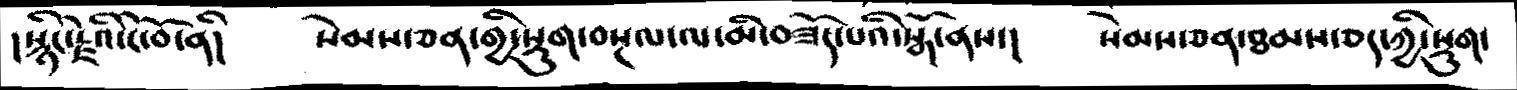།སྙིང་རྗེའི་ངོ་བོ་ནི།      སེམས་ཅན་གྱི་སྡུག་བསྔལ་ལ་མི་བཟོད་པའི་སྒོ་ནས་།      སེམས་ཅན་ཐམས་ཅད་ཀྱི་སྡུག་
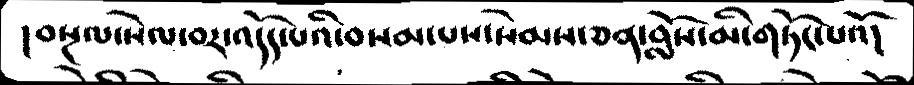།བསྔལ་སེལ་བར་འདོད་པའི་བསམ་པས་སེམས་ཅན་བློས་མི་གཏོང་པའོ།
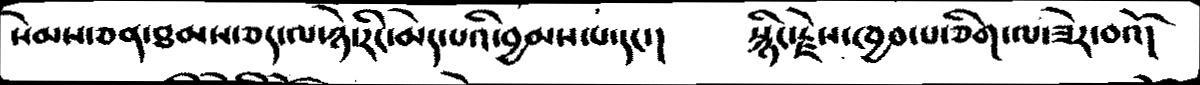སེམས་ཅན་ཐམས་ཅད་ཉེ་རིང་མེད་པའི་བྱམས་པ་དང་།      སྙིང་རྗེས་ཁྱབ་པ་ཅིག་ལ་ཟེར་བའོ།
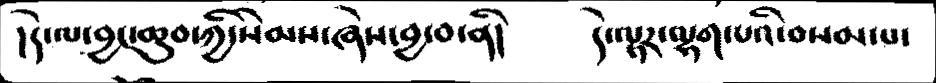།དེ་ལ་བྱང་ཆུབ་ཀྱི་སེམས་ཞེས་བྱ་བ་ནི།      དེ་ལྟར་ལྷག་པའི་བསམ་པ་
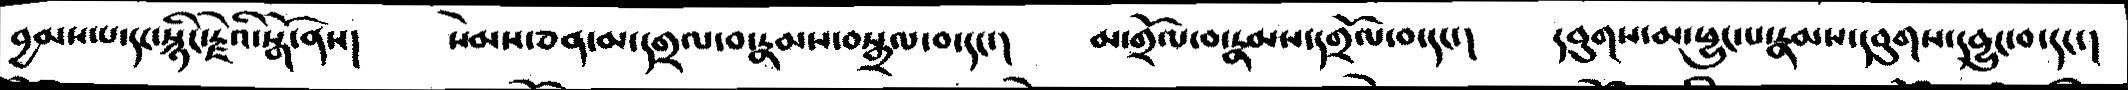བྱམས་པ་དང་སྙིང་རྗེའི་སྒོ་ནས།   སེམས་ཅན་མ་དགྲལ་བ་རྣམས་བསྒྲལ་བ་དང་།  མ་གྲོལ་བ་རྣམས་དགྲོལ་བ་དང་།  དབུགས་མ་ཕྱུང་པ་རྣམས་དབུགས་དབྱུང་བ་དང་།
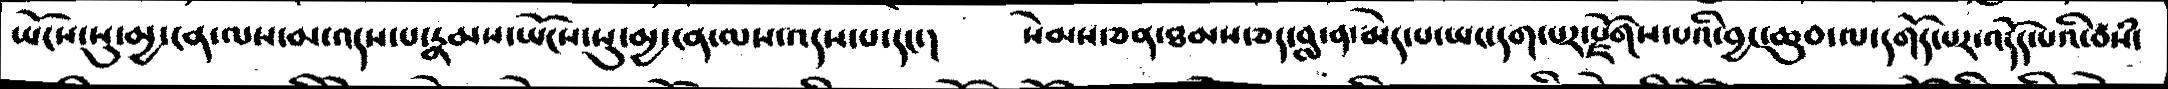ཡོངས་སུ་མྱ་ངན་ལས་མ་འདས་པ་རྣམས་ཡོངས་སུ་མྱ་ངན་ལས་འདས་པ་དང་།   སེམས་ཅན་ཐམས་ཅད་བླ་ན་མེད་པ་ཡང་དག་པར་རྫོགས་པའི་བྱང་ཆུབ་ལ་དགོད་པར་འདོད་པའི་བསཾ་
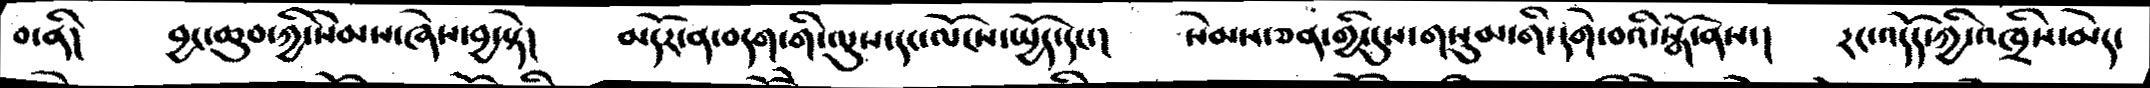བ་ནི།    བྱང་ཆུབ་ཀྱི་སེམས་ཞེས་བྱ་སྟེ།  མདོར་ན་བདག་གི་ལུས་དང་ལོངས་སྤྱོད་དང་།  སེམས་ཅན་གྱི་དུས་གསུམ་གི་དགེ་བའི་སྒོ་ནས་།  རང་འདོད་ཀྱི་འཁྲིས་མེད་
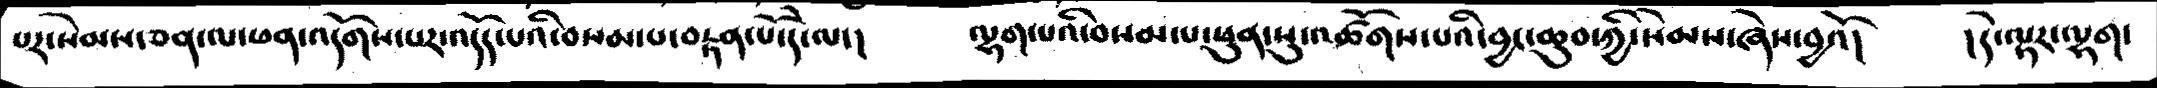པར་སེམས་ཅན་ལ་ཕན་འདོགས་པར་འདོད་པའི་བསམ་པ་བརྟན་པོ་དེ་ལ་།   ལྷག་པའི་བསམ་པ་ཕུན་སུམ་འཚོགས་པའི་བྱང་ཆུབ་ཀྱི་སེམས་ཞེས་བྱའོ།   །དེ་ལྟར་ལྷག་
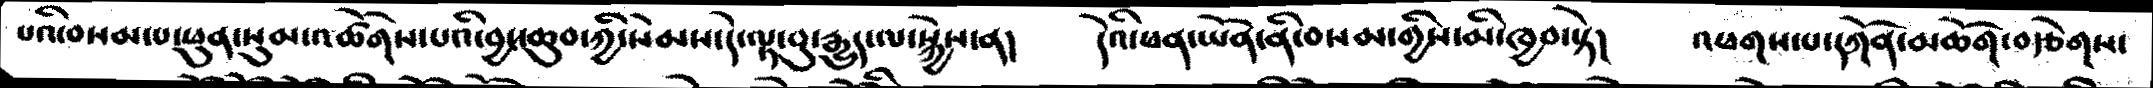པའི་བསམ་པ་ཕུན་སུམ་འཚོགས་པའི་བྱང་ཆུབ་ཀྱི་སེམས་དེ་ལྟ་བུ་རྒྱུད་ལ་སྐྱེས་ན།     དེའི་ཕན་ཡོན་ནི་བསམ་གྱིས་མི་ཁྱབ་སྟེ།   འཕགས་པ་དཀོན་མཆོག་བརྩེགས་
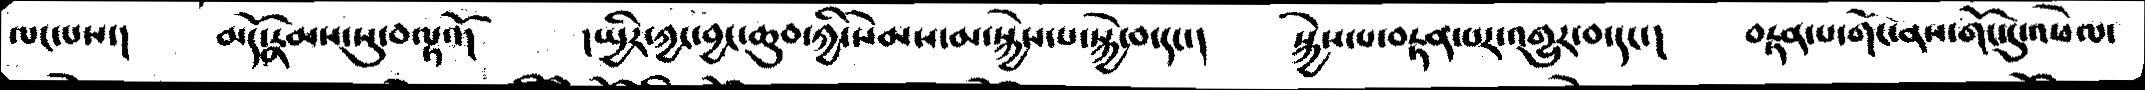ལང་པས་།   མདོ་རྣམས་སུ་བལྟའོ།   །སྤྱིར་ཀྱང་བྱང་ཆུབ་ཀྱི་སེམས་མ་སྐྱེས་པ་སྐྱེ་བ་དང་།   སྐྱེས་པ་བརྟན་པར་འགྱུར་བ་དང་།    བརྟན་པ་གོང་ནས་གོང་དུ་འཕེལ་
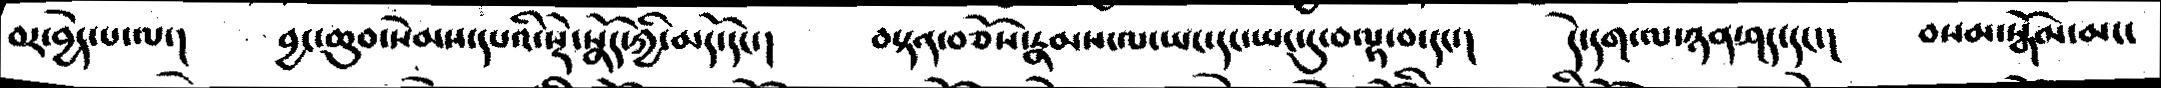བར་བྱེད་པ་ལ་།   བྱང་ཆུབ་སེམས་དཔའི་སྡེ་སྣོད་ཀྱི་མདོ་དང་།   བསྟན་བཅོས་རྣམས་ལ་ཡང་དང་ཡང་དུ་བལྟ་བ་དང་།  དེ་དག་ལ་ཉན་ཤད་དང་།  བསམ་སྒོམ་མང་
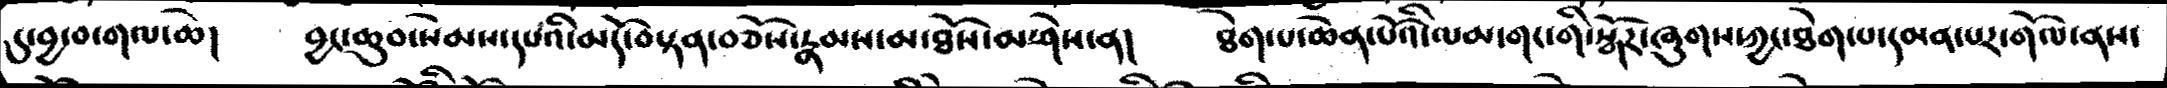དུ་བྱ་བ་གལ་ཆེ།   བྱང་ཆུབ་སེམས་དཔའི་མདོ་བསྟན་བཅོས་རྣམས་མ་ཐོས་མ་ཤེས་ན།   ཐེག་པ་ཆེན་པོའི་ལམ་གང་གི་སྒོར་ཞུགས་ཀྱང་ཐེག་པ་དམན་པར་གོལ་ནས་
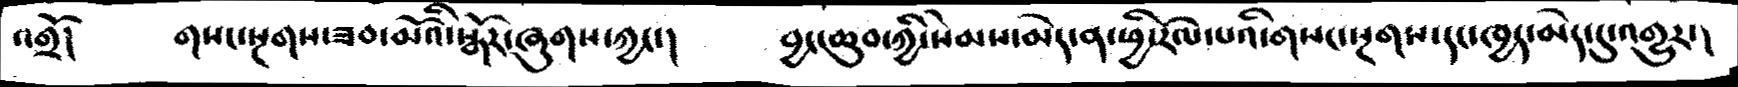འགྲོ།    གསང་སྔགས་ཟབ་མོའི་སྒོར་ཞུགས་ཀྱང་།   བྱང་ཆུབ་ཀྱི་སེམས་མེད་ན་ཕྱི་རོལ་པའི་གསང་སྔགས་དང་ཁྱད་མེད་དུ་འགྱུར་།
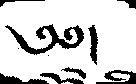༄༅།
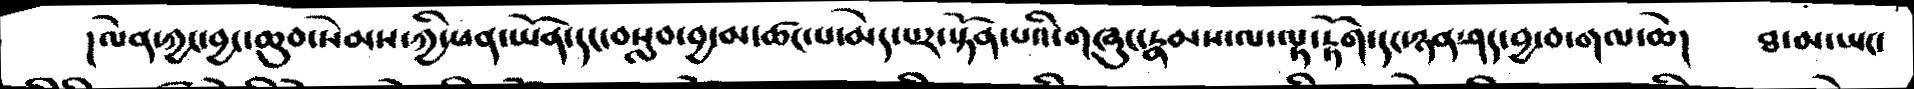།ལེན་ཀྱང་བྱང་ཆུབ་སེམས་ཀྱི་ཕན་ཡོན་དང་བསླབ་བྱ་མ་ཚང་པ་མེད་པར་སྟོན་པའི་གཞུང་རྣམས་ལ་ལྟ་རྟོག་དང་ཉན་ཤད་བྱ་བ་གལ་ཆེ།   ཐ་མ་ཡང་
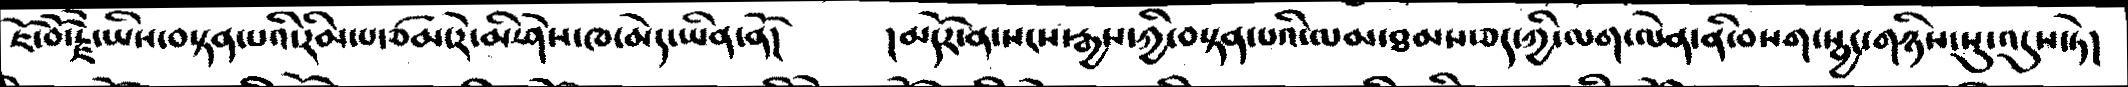ཇོ་བོ་རྗེ་ཡིས་བསྟན་པའི་རིམ་པ་ཙམ་རེ་མི་ཤེས་ཁ་མེད་ཡིན་ནོ།   །མདོར་ན་སངས་རྒྱས་ཀྱི་བསྟན་པའི་ལམ་ཐམས་ཅད་ཀྱི་ལག་ལེན་ནི་བསག་སྦྱང་གཉིས་སུ་འདུས་ཏེ།
